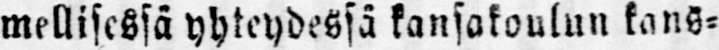mellisessä yhteydessä kansakoulun kans-
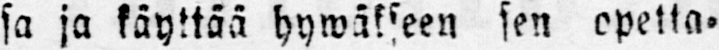sa ja käyttää hywäkseen sen opetta-
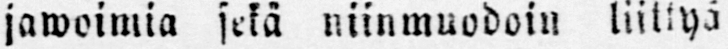jawoimia sekä niinmuodoin liittyä
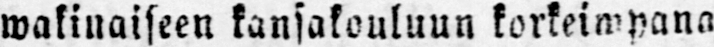wakinaiseen kansakouluun korkeimpana
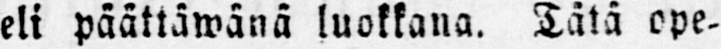eli päättäwänä luokkana. Tätä ope-
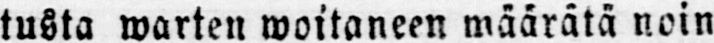tusta warten woitaneen määrätä noin
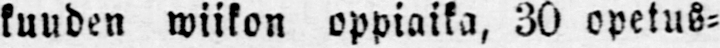kuuden wiikon oppiaika, 30 opetus-
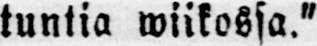tuntia wiikossa."
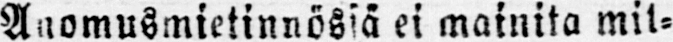Anomusmietinnössä ei mainita mil-
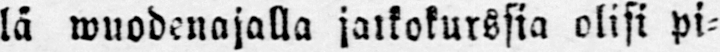lä wuodenajalla jatkokurssia olisi pi-
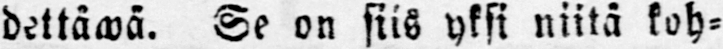dettäwä. Se on siis yksi niitä koh-
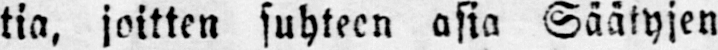tia, joitten suhteen asia Säätyjen
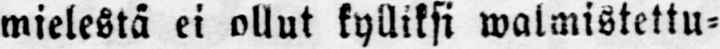mielestä ei ollut kylliksi walmistettu-
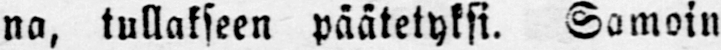na, tullakseen päätetyksi. Samoin
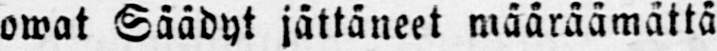owat Säädyt jättäneet määräämättä
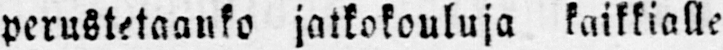perustetaanko jatkokouluja kaikkialle
